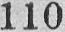110
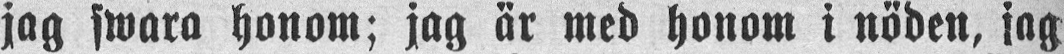jag swara honom; jag är med honom i nöden, jag
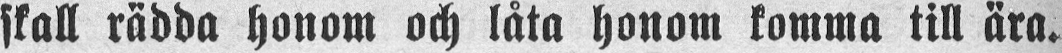skall rädda honom och låta honom komma till ära.
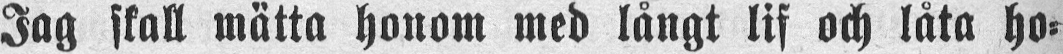Jag skall mätta honom med långt lif och låta ho-
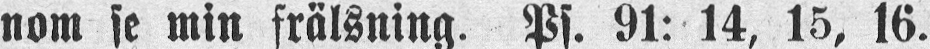nom se min frälsning. Ps. 91: 14, 15, 16.
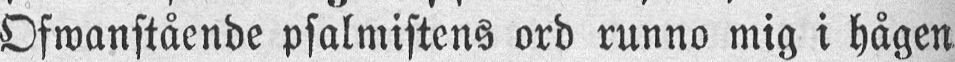Ofwanstående psalmistens ord runno mig i hågen
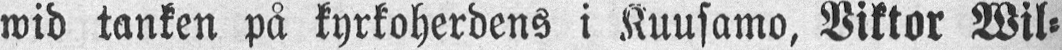wid tanken på kyrkoherdens i Kuusamo, Viktor Wil-
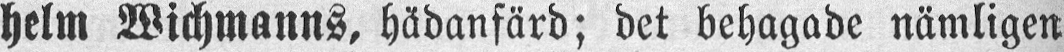helm Wichmanns, hädanfärd; det behagade nämligen
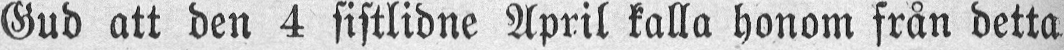Gud att den 4 sistlidne April kalla honom från detta
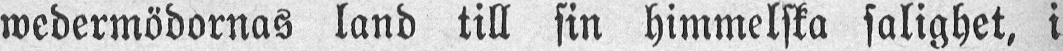wedermödornas land till sin himmelska salighet, i
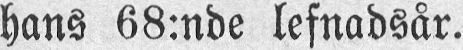hans 68:nde lefnadsår.
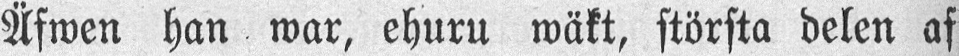Äfwen hän war, ehuru wäkt, största delen af
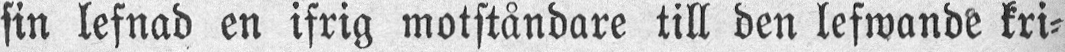sin lefnad en ifrig motståndare till den lefwande kri-
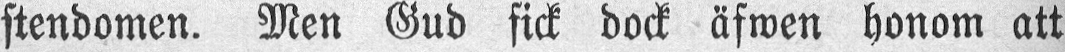stendomen. Men Gud fick dock äfwen honom att
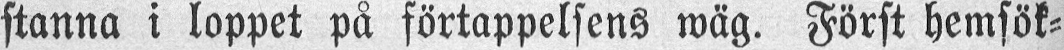stanna i loppet på förtappelsens wäg. Först hemsök-
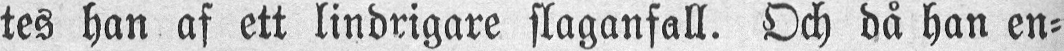tes han af ett lindrigare slaganfall. Och då han en-
